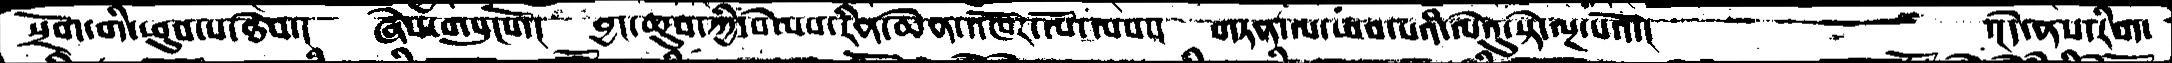སྲོག་གི་ཕུབ་པ་ཐེབ་།  ཞེས་གསུངསོ་།  བྱང་ཆུབ་ཀྱི་སེམས་རིན་ཆེན་འཁོར་ལོ་ལས་། གཏན་ལ་ཕབ་པའི་ལེའུ་སྟེ་ལྔ་པའོ་།  ་།དེ་ནས་རིག་
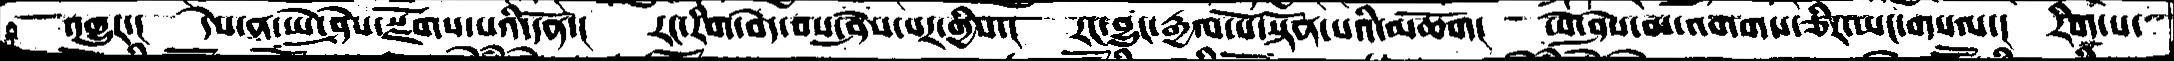འགྱུར་།  དེས་ན་ཡེ་ཤེས་སྫོག་པའི་དོན་།  རང་རིག་བདེ་བས་ཤེས་པར་གྱིས་།  རང་བྱུང་རྒྱལ་པོ་སྟོན་པའི་མཆོག།  ཡེ་ཤེས་མ་འགགས་ཅིར་ཡང་གསལ་།  རིག་པ་
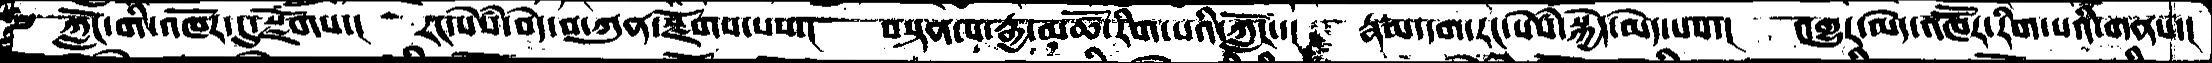ཀློང་གི་འཁོར་དུ་སྫོགས་། རང་སེཾས་བདེ་བ་ཀུན་སྫོགས་པས་།  བསྟན་པ་རྒྱ་མཚོ་རིག་པའི་ཀློང་་།  རྣམ་དག་རང་སེཾས་སྐྱེ་མེད་པས་།  འགྱུར་མེད་འཁཽར་རིག་པའི་གནས་།
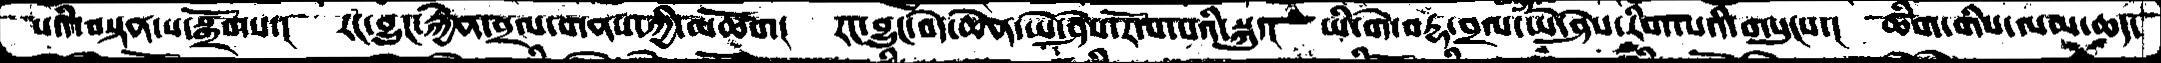པའི་བསྟན་པ་སྒྲོགས་།  རང་བྱུང་སྐྱོན་བྲལ་གནས་ཀྱི་མཆོག།  རང་བྱུང་བདེ་ཆེན་ཡེ་ཤེས་རོལ་པའི་སྐུ་།  ཡི་གེ་བརྡ་བྲལ་ཡེ་ཤེས་རིག་པའི་གསུངས་།  ཚིག་གིས་ལམ་ཆད་
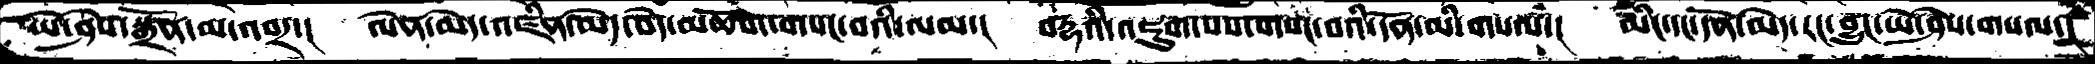ཡེ་ཤེས་སྒྲོན་མ་འབར་།  ལེན་མེད་འཛིན་མེད་བདེ་མཆོག་གསང་བའི་ལམ་།  བརྡའི་འཇུག་པས་གསང་བའི་དོན་མི་གསལ་།  མིང་དང་དོན་མེད་རང་བྱུང་ཡེ་ཤེས་གསལ་།
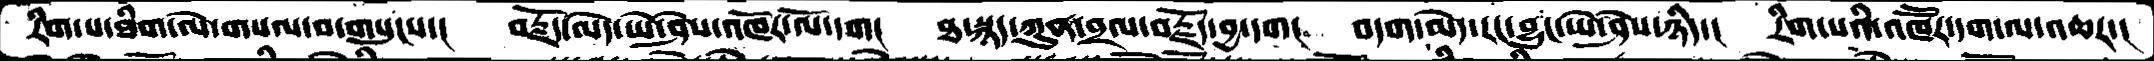རིག་པ་ཐིག་ལེ་གསལ་བ་གསུངས་།  བརྗོད་མེད་ཡེ་ཤེས་འཁོར་ལོ་དག།  ཐ་སྙད་ཀུན་བྲལ་བརྗོད་བྱ་དག།  བདག་མེད་རང་བྱུང་ཡེ་ཤེས་ཉིད་།  རིག་པའི་འཁཽར་དག་ལ་འཆར་།
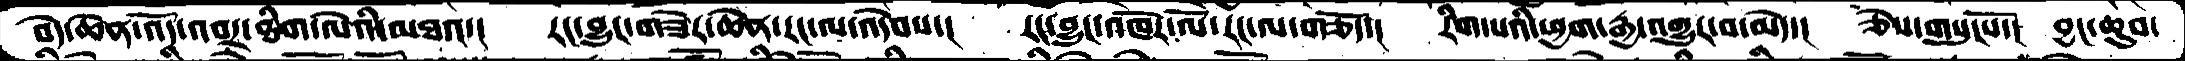བདེ་ཆེན་འོད་འབར་ཐིག་ལེའི་མཐའ་།  རང་བྱུང་གཟེར་ཆེན་རང་ལ་འདེབས་།  རང་བྱུང་འཁོར་ལོ་རང་ལ་གཅོད་།  རིག་པའི་ཕྱག་རྒྱ་འགྱུར་བ་མེད་།  ཅེས་གསུངསོ་།  བྱང་ཆུབ་
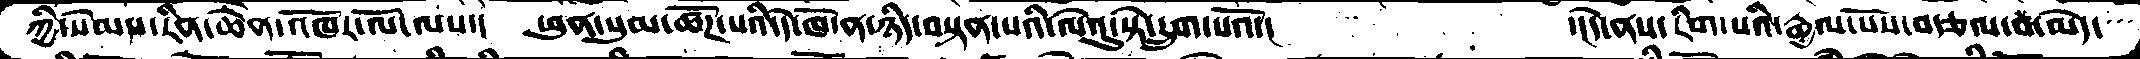ཀྱི་སེམས་རིན་ཆེན་འཁོར་ལོ་ལས་།   ཕུན་སུམ་ཚོཌ་པའི་དེ་ཁོ་ན་ཉིད་བསྟན་པའི་ལེའུ་སྟེ་དྲུག་པའོ་།            ་།དེ་ནས་རིག་པའི་རྒྱལ་པོས་བརྩལ་བ་མེེད་
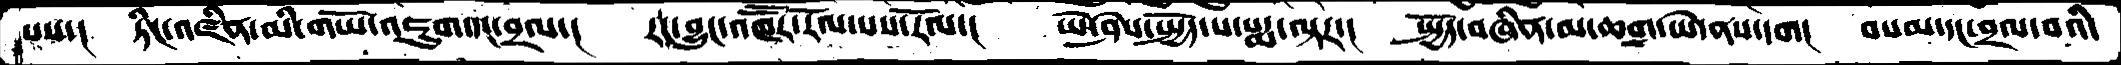པས་།   ཏིང་འཛིན་མི་གཡོ་འཇུག་དང་བྲལ་།    རང་བྱུང་འཁཽར་རོལ་པས་རོལ་།    ཡེ་ཤེས་སྤྱོད་པ་པདྨ་ལྟར་།   སྤྱོད་བཞིན་མ་ཆག་ཡེ་ནས་དག།   བསམ་དང་བྲལ་བའི་
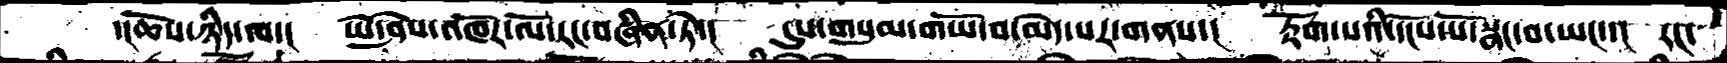་།ཆོས་ཉིད་ལ་།   ཡེ་ཤེས་འཁོར་ལོ་རང་བཞིན་ཏེ་།     དུས་གསུམ་གཡོ་བ་མེད་པར་གནས་།    རྟོག་པའི་དངོས་པོ་སྣང་བ་ཡང་་།   རང་
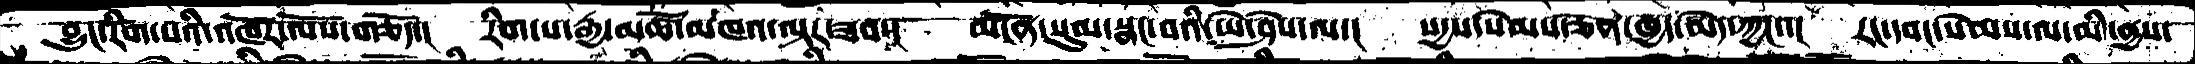བྱུང་རིག་པའི་འཁོར་ལོས་གཅོད་།  རིག་པ་རྒྱ་མཚོ་མཁའ་ལྟར་ཟབ་།  མངོན་སུམ་སྣང་བའི་ཡེ་ཤེས་ལ་།  སདྱས་སེམས་ཅན་ཁྱད་མེད་ཀྱང་་།  རང་དབང་སེམས་ལ་མི་ནྱས་
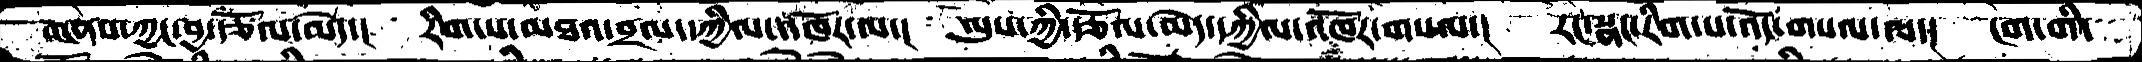གནས་ཀྱང་བྱ་རྩོལ་མེད་།  རིག་པ་མཐའ་བྲལ་དཀྱིལ་འཁོར་ལ་།  ལུས་ཀྱི་རྩོལ་མེད་དཀྱིལ་འཁོར་གསལ་།  རང་སྣང་རིག་པ་འོད་གསལ་ལ་།  ངག་གི་
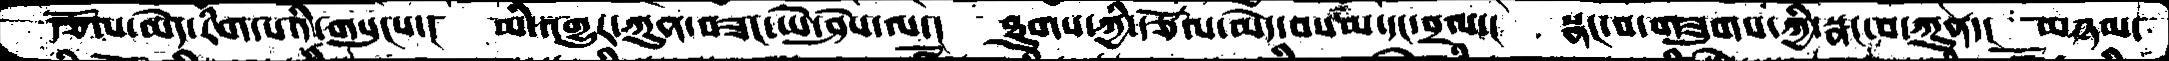རྩོལ་མེད་རིག་པའི་གསུངས་།  མི་འགྱུར་ཀུན་བཟང་ཡེ་ཤེས་ལ་།  ཐུགས་ཀྱི་རྩོལ་མདེ་བསམ་དང་བྲལ་།  སྣང་བ་གཟུགས་ཀྱི་སྣང་བ་ཀུན་།  མཉམ་
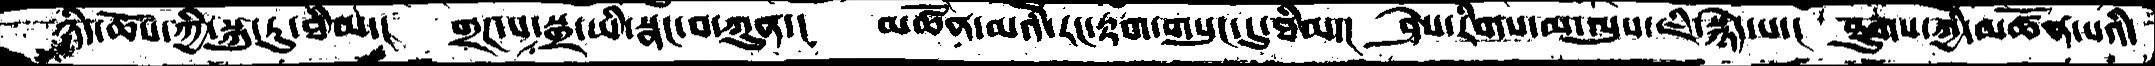ཉིད་ཆོས་ཀྱི་སྐུ་རུ་ཐིམ་།  གྲཌ་པ་སྒྲ་ཡི་སྣང་བ་ཀུན་།  མཚོན་མའི་རང་རྟག་གསུང་དུ་ཐིམ་།  ཤེས་རིག་མ་ལུས་ཇི་སྙེད་པ་།  ཐུགས་ཀྱི་མཚོན་པའི་
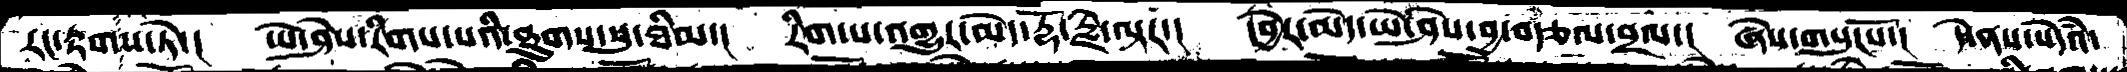རང་རྟགས་ཏེ་།  ཡེ་ཤེས་རིགས་པའི་ཐུགས་སུ་ཐིམ་།  རིག་པ་འགྱུར་མེད་རྡོ་རྗེ་ལྟར་།  དབྱེར་མདེ་ཡེ་ཤེས་བྱ་བརྩལ་བྲལ་།  ཞེས་གསུངསོ་།  དེ་ནས་སེདཾའ་
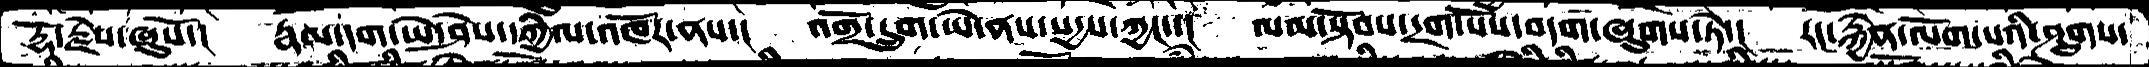རྡོ་རྗེས་ཞུསོ་།   རྣམ་དག་ཡེ་ཤེས་དཀྱིལ་འཁོར་ནས་།    འགྲོ་དྲུག་ཡེ་ནས་སདྱས་ཀྱང་་།    ལམ་སྟོབས་དྲག་པོས་བདག་ཞུགས་ཏེ་།   རང་རྐྱེན་ལོག་པའི་ཤུགས་
